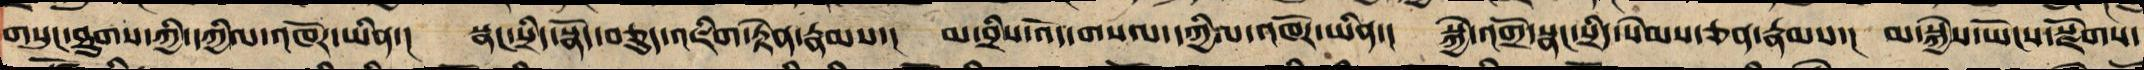གསུང་ཐུགས་ཀྱི་དཀྱིལ་འཁོར་ཡིན་། སྣང་སྲིད་སྣོད་བཅུད་འཇིག་རྟེན་རྣམས་། མ་བྲིས་འོད་གསལ་དཀྱིལ་འཁོར་ཡིན་། སྐྱེ་འགྲོ་སྣང་སྲིད་སེམས་ཅན་རྣམས་། མ་སྐྱེས་ཡོངས་སྫོགས་
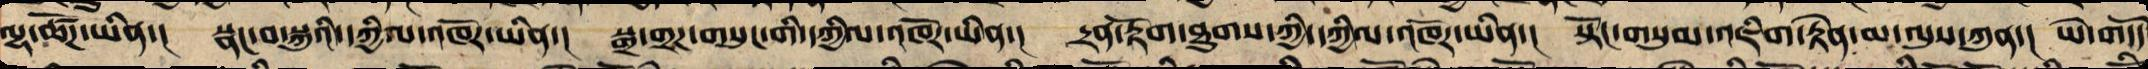ལྷ་ཚོཌ་ཡིན་། སྣང་བ་སྐུའི་དཀྱིལ་འཁོར་ཡིན་། སྒྲ་གྲག་གསུང་གི་དཀྱིལ་འཁོར་ཡིན་། དྲན་རྟོག་ཐུགས་ཀྱི་དཀྱིལ་འཁོར་ཡིན་། སྟོང་གསུམ་འཇིག་རྟེན་མ་ལུས་ཀུན་། ཡེ་གདོད
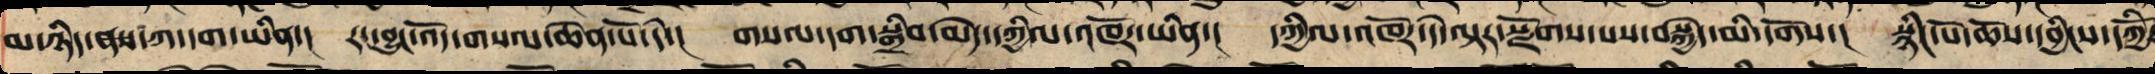མ་ཉིད་ནས་ཀ་དག་ཡིན་། རང་བྱུང་འོད་གསལ་ཆེན་པོ་དེ་། གསལ་དག་སྒྲིབ་མེད་དཀྱིལ་འཁོར་ཡིན་། དཀྱིལ་འཁོར་དེ་ལྟར་སྫོགས་པས་བསྐྱེད་མི་དགོས་། སྙིང་པོ་ཆོས་དབྱིངས་དཀྱིོར
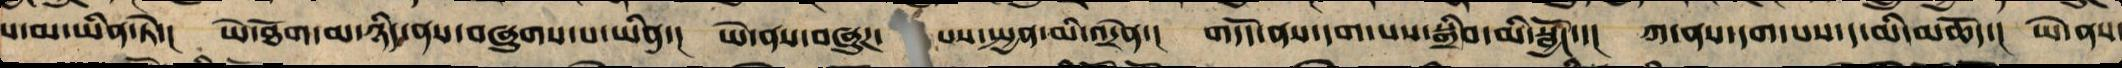པ་མ་ཡིན་ཏེ་། ཡེ་ཐོག་མ་ཉིད་ནས་བཞུགས་པ་ཡིན་། ཡེ་ནས་བཞུཌ་པས་སྤྱན་མི་འདྲེན་། གདོད་ནས་དག་པས་སྒྲིབ་མི་སྦྱོང་་། ཀ་ནས་དག་པས་ད་མི་མཆོད་། ཡེ་ནས་
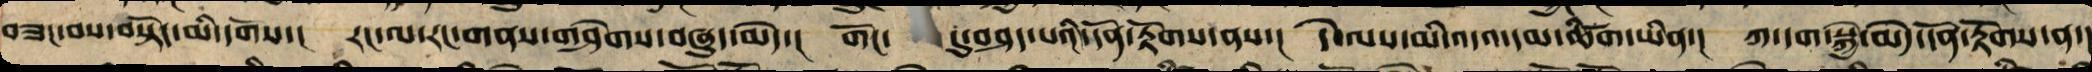བཟང་བས་བསྟོད་མི་དགོས་། རང་ལ་རང་གནས་གཤེགས་བཞུད་མེད་། གོང་དུ་བཤད་པའི་དོན་རྟོགས་ན་། དེ་ལས་མི་འདའ་དམ་ཚིག་ཡིན་། ཀ་དག་སྐྱེ་མེད་དོན་རྟོགས་ན་།
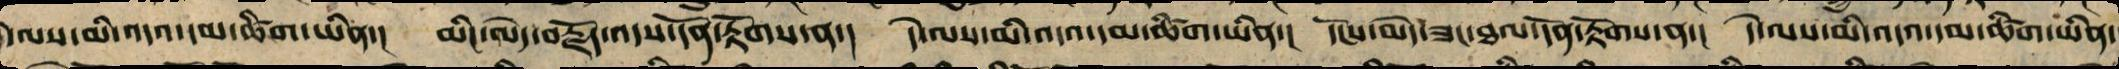དེ་ལས་མི་འདའ་དམ་ཚིག་ཡིན་།། མིང་མེད་བརྗོད་འདས་དོན་རྟོགས་ན་། དེ་ལས་མི་འདའ་དམ་ཚིག་ཡིན་། དངོས་མེད་ཟང་ཐལ་དོན་རྟོགས་ན་། དེ་ལས་མི་འདའ་དམ་ཚིག་ཡིན་
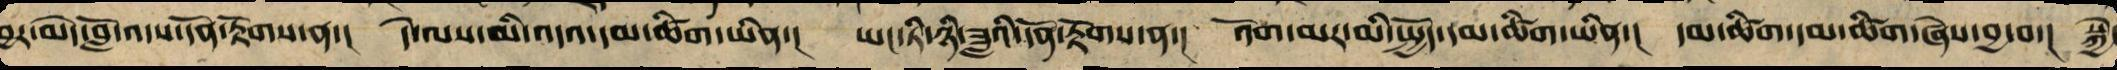བྱར་མེད་བློ་འདས་དོན་རྟོགས་ན་། དེ་ལས་མི་འདའ་དམ་ཚིག་ཡིན་། ཡང་ཏི་ཉི་ཟླའི་དོན་རྟོགས་ན་། འོག་མར་མི་སྤྱོད་དམ་ཚིག་ཡིན་། དམ་ཚིག་དམ་ཚིག་ཅེས་བྱ་བ་། སྐྱེ་
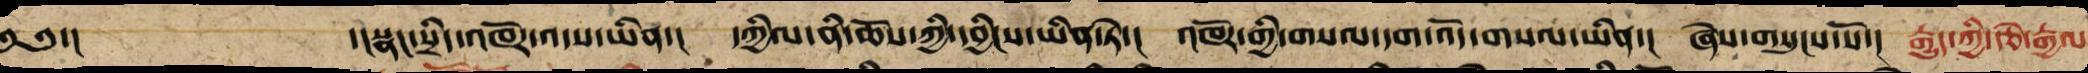༄༅་།   ་།སྣང་སྲིད་འཁོར་འདས་ཡིན་། དཀྱིལ་ནི་ཆོས་ཀྱི་དབྱིངས་ཡིན་ཏེ་། འཁོར་ནི་གསལ་དག་འོད་གསལ་ཡིན་། ཞེས་གསུངས་སོ་། རྒྱུད་ཀྱི་རྩེ་རྒྱལ
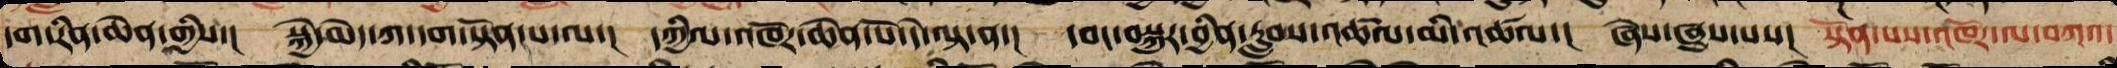དག་རིན་ཆེན་གྱིས་། སྐྱེ་མེད་ཀ་དག་སྟོན་པ་ལ་། དཀྱིལ་འཁོར་ཆེན་པོ་དེ་ལྟར་ན་། དབང་བསྐུར་བྱིན་རླབས་འཚལ་མི་འཚལ་། ཞེས་ཞུས་པས་། སྟོན་པས་འཁོར་ལ་བཀའ་
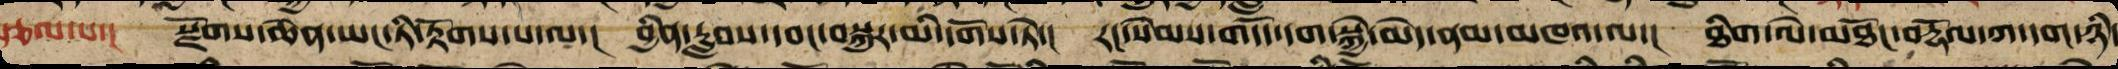སྩལ་པ་། སྫོགས་ཆེན་ཡང་ཏི་རྟོགས་པ་ལ་། བྱིན་རླབས་དབང་བསྐུར་མི་དགོས་ཏེ་། རང་སེམས་གདོད་དག་སྐྱེ་མེད་ནམ་མཁའ་ལ་། ཐིག་ལེ་མཐོང་བརྟོལ་ཀ་དག་ཉིད
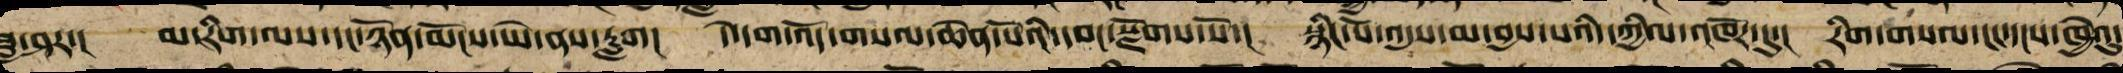ཟླ་ཤར་། མ་རིག་ལས་དང་ཉོན་མོངས་ཡེ་ནས་རླག། དེ་དག་འོད་གསལ་ཆེན་པོའི་དབང་སྫོགས་སོ་། སྙིང་པོ་འདུས་མ་བྱས་པའི་དཀྱིལ་འཁོར་དུ།་ རིག་གསལ་ངང་དྭངས་ཁྱེའུ་
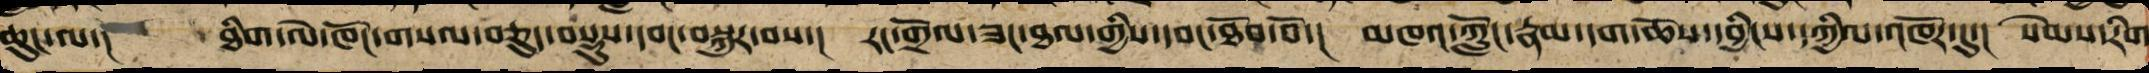ཆུང་ལ་། ཐིག་ལེ་ཁོང་གསལ་བཅུད་བསྡུས་དབང་བསྐུར་བས་། རང་གྲོལ་ཟང་ཐལ་དབང་ཐོབ་བོ་། མཁའ་ཀློང་རྣམ་དག་ཆོས་དབྱིངས་དཀྱིལ་འཁོར་དུ་། སེམས་རིག
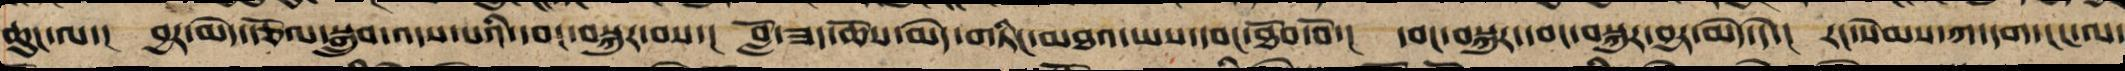ཆུང་ལ་། བྱར་མེད་རྩོལ་སྒྲུབ་འདས་པའི་དབང་བསྐུར་བས་། བློ་ཟད་ཆོས་མེད་གཏིང་མཐའ་ཡས་དབང་ཐོབ་བོ་། དབང་བསྐུར་དབང་བསྐུར་བྱར་མེད་དེ་། རང་སེམས་ཀ་དག་ངང་ལ་
